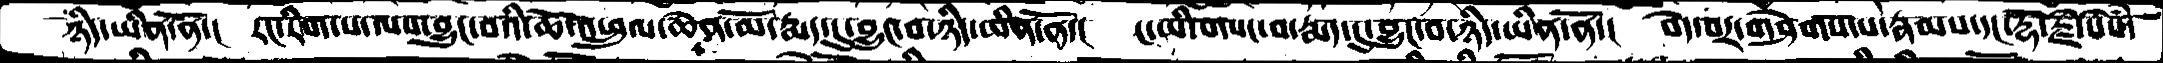ཉིད་ཡིན་ནོ་།  རང་རིག་པ་ལས་བྱུང་བའི་ཆོ་འཕྲུལ་ཆེན་མོ་རྨད་དུ་བྱུང་བ་ཉིད་ཡིན་ནོ་།  ང་ཡི་གསང་བ་རྨད་དུ་བྱུང་བ་ཉིད་ཡིན་ནོ་།   བདེ་བར་གཤེགས་པ་རྣམས་དང་རྡོ་རྗེ་སེསཾ་
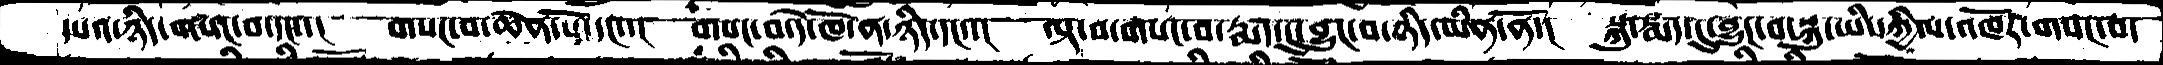དཔའ་ཉིད་གསང་བ་དང་་།  གསང་བ་ཆེན་པོ་དང་་།  གསང་བ་དེ་ཁོ་ན་ཉིད་དང་་།  ལྟ་བ་གསང་བ་རྨད་དུ་བྱུང་བ་ཉིད་ཡིན་ནོ་།  སྐུ་རྨད་དུ་བྱུང་བ་སྐུ་ཡི་དཀྱིལ་འཁོར་གསང་བ་
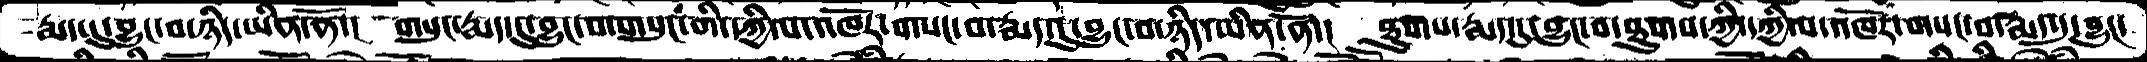རྨད་དུ་བྱུང་བ་ཉིད་ཡིན་ནོ་།  གསུང་རྨད་དུ་བྱུང་བ་གསུང་གི་དཀྱིལ་འཁོར་གསང་བ་རྨད་དུ་བྱུང་བ་ཉིད་ཡིན་ནོ་།  ཐུགས་རྨད་དུ་བྱུང་བ་ཐུགས་ཀྱི་དཀྱིལ་འཁོར་གསང་བ་རྨད་དུ་བྱུང་
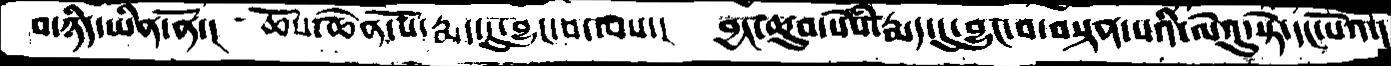བ་ཉིད་་ཡིན་ནོ་།  ཆོས་ཆེན་པོ་རྨད་དུ་བྱུང་བ་ལས་།  བྱང་ཆུབ་སེསཾ་རྨད་དུ་བྱུང་བ་བསྟན་པའི་ལེའུ་སྟེ་དང་པོའོ་།
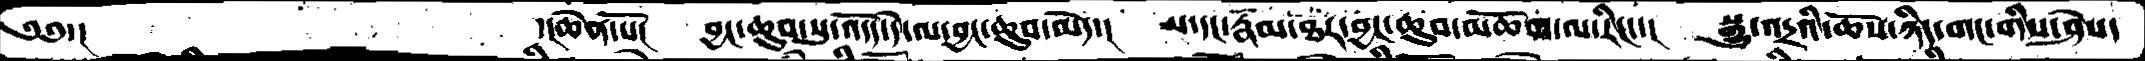༄༅་།          ་།ཆེན་པོ།  བྱང་ཆུབ་སུ་འདོད་དེ་ལ་བྱང་ཆུབ་མེད་།  ས་དང་རྣམ་ཐར་བྱང་ཆུབ་མཆོག་ལ་རིང་།  སྒྱུ་འད྄འི་ཆོས་ཉིད་གང་གིས་ཤེས་
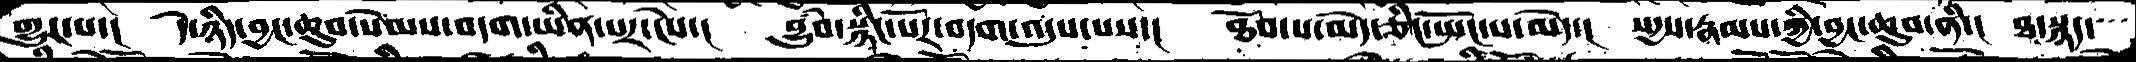གྱུར་པ་།  དེ་ཉིད་བྱང་ཅུབ་སེམས་བདག་ཡིན་པར་ངེས་།  བྱུཾབ་སྙིང་པར་བདག་འདུས་པས་།  ཐོབ་པ་མེད་ཅིང་སྤོང་པ་མེད་།  སདྱས་རྣམས་ཀྱི་བྱང་ཆུབ་ནི་།  ཐ་སྙད་
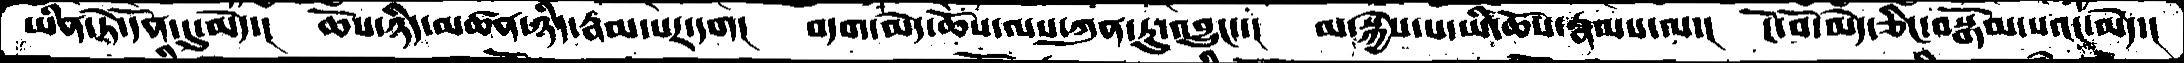ཡིན་ཏེ་དོན་དུ་མེད་། ཆོས་ཉིད་མཚན་ཉིད་རྣམ་པར་དག། བདག་མེད་ཆོས་ལས་ཀུན་ཏུ་འབྱུང་་། མ་སྐྱེས་པ་ཡི་ཆོས་རྣམས་ལ་། ངོ་བོ་མེད་ཅིང་བསྒོམ་པའང་མེད་།
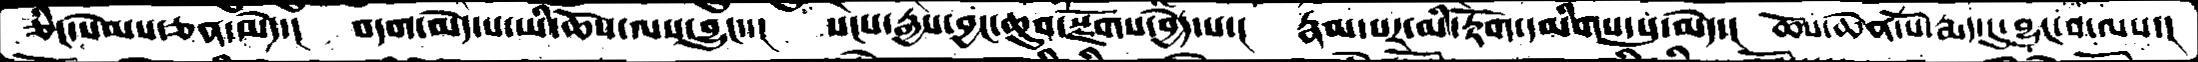ཅིང་སེམས་ཅན་མེད་།  བདག་མེད་པ་ཡི་ཆོས་ལས་བྱུང་།  སངས་རྒྱས་བྱང་ཆུབ་སྫོགས་བྱེད་པ་།  རྣམ་པར་མི་རྟོག་དམིགས་སུ་མེད་།  ཆོས་ཆེན་པོ་རྨད་དུ་བྱུང་བ་ལས་།
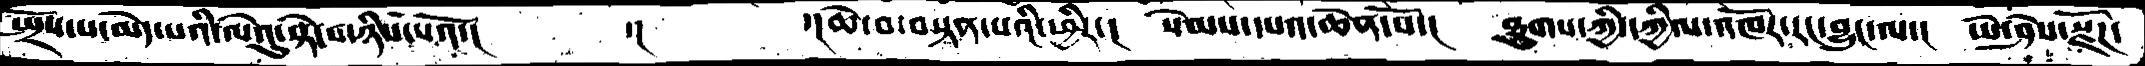སྤྲོས་པ་མེད་པའི་ལེའུ་སྟེ་གཉིས་པའོ་།    ་།     ་།ཆེ་བ་བསྟན་པའི་ཕྱིར་།  སེམས་དཔའ་ཆེན་པོ་།  ཐུགས་ཀྱི་དཀྱིལ་འཁོར་རང་བྱུང་ལ་།  ཡེ་ཤེས་སྫོཌ་
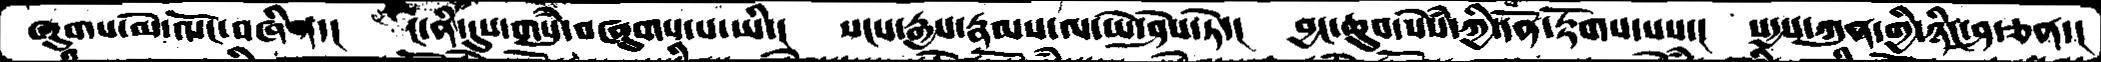ཞུགས་མེ་ལོང་བཞིན་།  ང་ནི་དུས་གསུཾ་བཞུགས་པ་ཡི་།  སངས་རྒྱས་རྣམས་ལ་ཡེ་ཤེས་ཏེ་།  བྱང་ཆུབ་སེསཾ་ཀྱི་དོན་རྟོགས་པས་།  སདྱས་ཀུན་གྱི་ཉིང་ཤ་ཅན་།
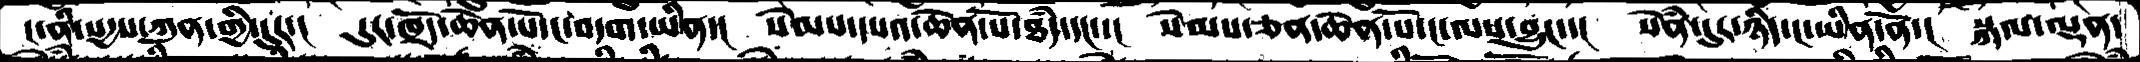ང་ནི་སདྱས་ཀུན་གྱི་དུར་།  དུར་ཁྲོད་ཆེན་པོ་ང་བདག་ཡིན་།  སེམས་དཔའ་ཆེན་པོ་ཐཾད་དང་་།  སེམས་ཅན་ཆེན་པོ་ང་ལས་བྱུང་་།  སེནཾ་དུར་ཉིད་ང་ཡིན་ནོ་།  སྐལ་ལྡན་
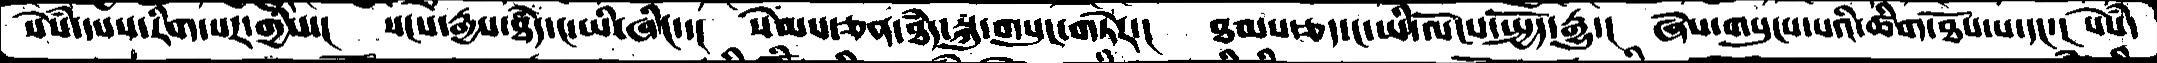སེསཾ་དསས་རིག་པར་གྱིས་།  སངས་རྒྱས་ཐཾད་ང་ཡི་ཞིང་་།  སེམས་ཅན་ཐཾད་སྐུ་གསུང་གཏེར་།  ཐམས་ཅད་ང་ཡི་ལོངས་སྤྱོད་རྒྱུ་།  ཞེས་གསུངས་པའི་ཚིག་ཐོས་པ་དང་་།  སེསཾ་
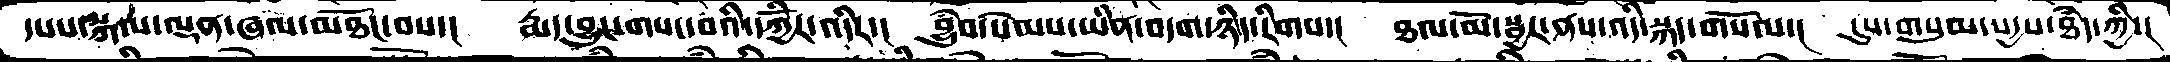དསས་སྐལ་ལྡན་ཞལ་མཐོང་བས་།  རྨད་བྱུང་གསང་བའི་དཀྱོིར་འདིར་།  བྱུཾབ་སེམས་ཡིན་བདག་ཉིད་རིགས་།  ཐལ་མོ་སྦྱར་ནས་འདི་སྐད་གསོལ་།  དུས་གསུམ་སདྱས་ཐཾད་ཀྱི་།
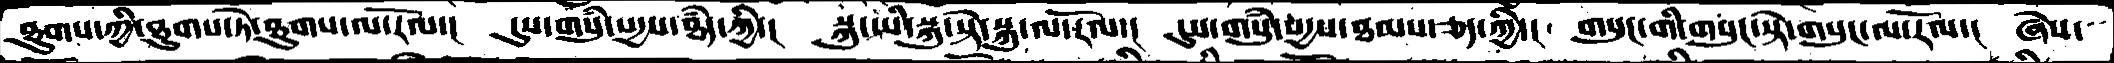ཐུགས་ཀྱི་ཐུགས་ཏེ་ཐུགས་ལ་རོལ་།  དུས་གསུཾ་སདྱས་ཐཾད་ཀྱི་།  སྐུ་ཡི་སྐུ་སྟེ་སྐུ་ལ་རོལ་།  དུས་གསུཾ་སདྱས་ཐམས་ཅད་ཀྱི་།  གསུང་གི་གསུང་སྟེ་གསུང་ལ་རོལ་།  ཞེས་
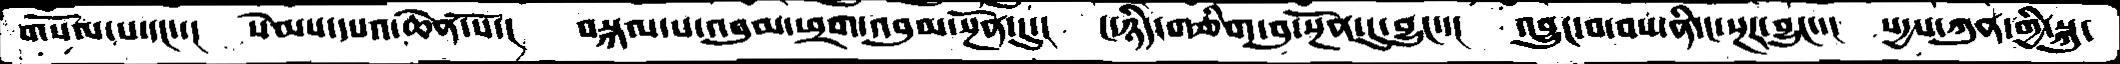གསོལ་པ་དང་་།  སེམས་དཔའ་ཆེན་པོ་།  བསྐལ་པ་འབུམ་ཕྲག་འབུམ་སྔོན་དུ་།  ང་ཉིད་གཅིག་པུ་སྔོན་དུ་བྱུང་་།  འབྱུང་བ་བས་ནི་ང་སྔར་བྱུང་་།  སདྱས་ཀུན་གྱི་སྐུ་
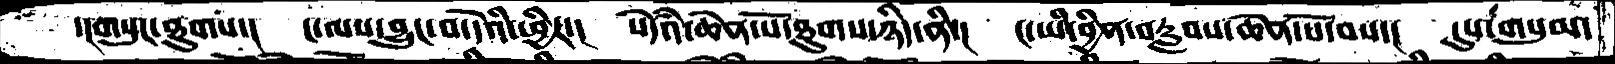་།གསུང་ཐུགས་།  ང་ལས་བྱུང་བ་དེའི་ཕྱིར་།   སེདཾའ་ཆེན་པོ་ཐུགས་ཉིད་ནི་།  ང་ཡི་བྱིན་བརླབས་ཆེན་པོ་བས་།  དུས་གསུམ་
